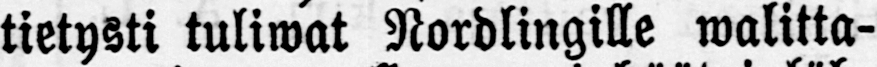tietysti tuliwat Nordlingille walitta-
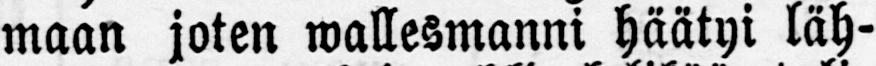maan joten wallesmanni häätyi läh-
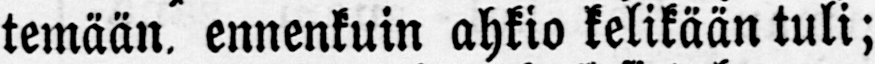temään, ennenkuin ahkio kelikään tuli;
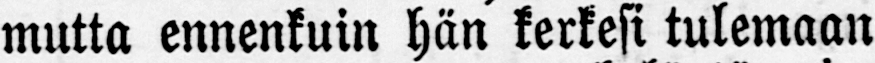mutta ennenkuin hän kerkesi tulemaan
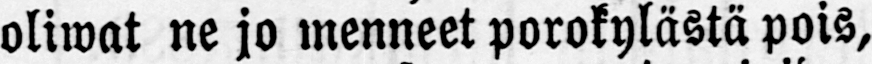ottiwat ne jo menneet porokylästä pois,
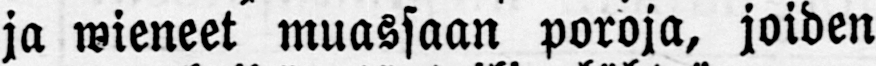ja wieneet muassaan poroja, joiden
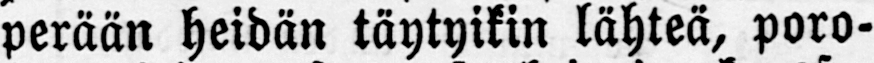perään heidän täytyikin lähteä, poro-
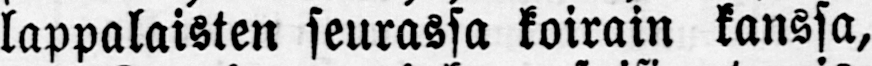lappalaisten seurassa koirain kanssa,
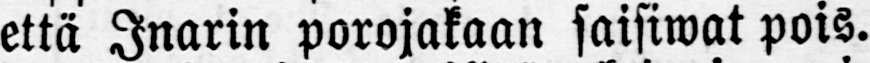että Inarin porojakaan saisiwat pois.
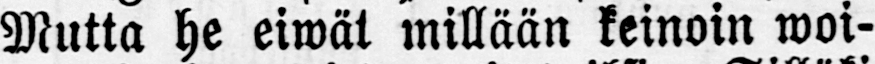Mutta he eiwät millään keinoin woi-
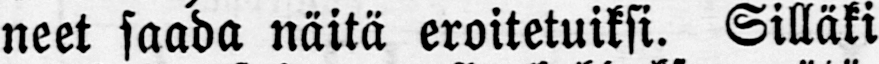neet saada näitä eroitetuiksi. Silläki
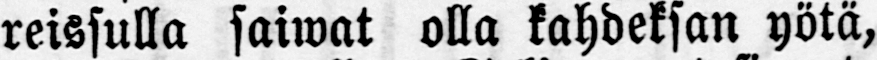reissulla saiwat olla kahdeksan yötä,
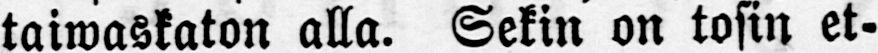taiwaskaton alla. Sekin on tosin et-
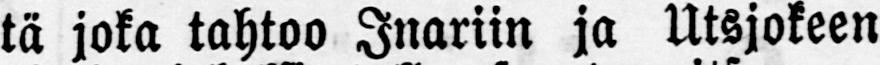tä joka tahtoo Inariin ja Utsjokeen
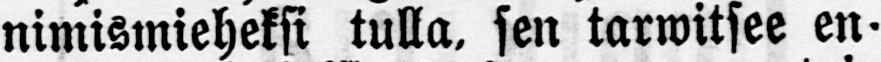nimismieheksi tulla, sen tarwitsee en-
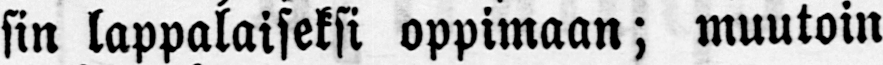sin lappalaiseksi oppimaan; muutoin
